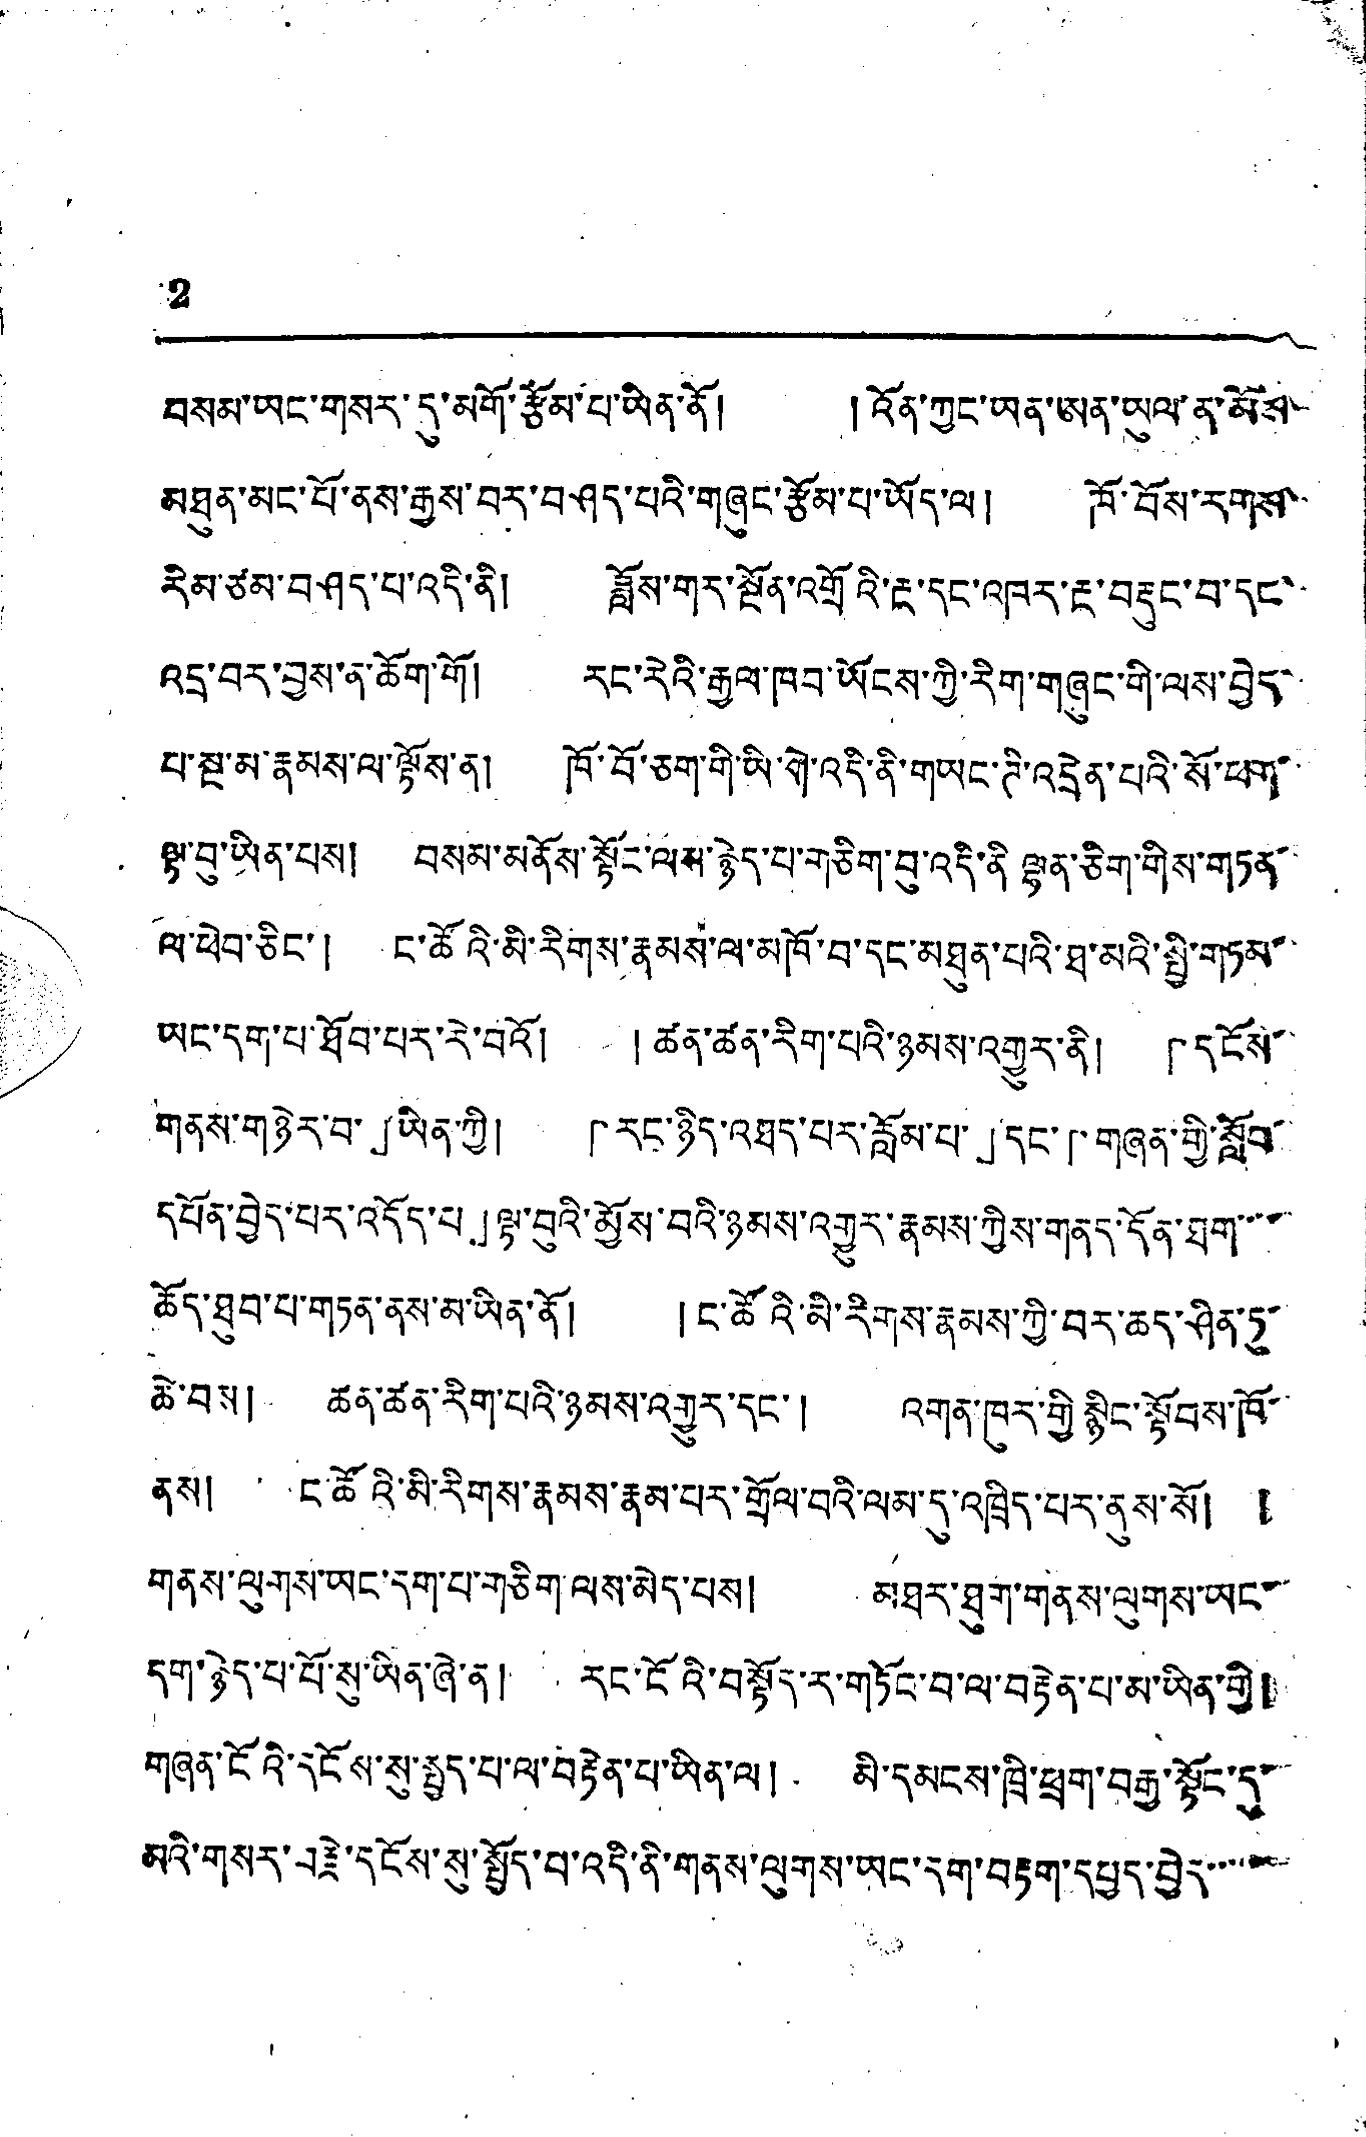2
བསམ་ཡང་གསར་དུ་མགོ་རྩོམ་པ་ཡིན་ནོ། །འོན་ཀྱང་ཡན་ཨན་ཡུལ་ན་མོས
མཐུན་མང་པོ་ནས་རྒྱས་བར་བཤད་པའི་གཞུང་རྩོམ་པ་ཡོད་ལ། ཁོ་བོས་རགས་
རིམ་ཙམ་བཤད་པ་འདི་ནི། ཟློས་གར་སྔོན་འགྲོའི་རྔ་དང་འཁར་རྔ་བརྡུང་བ་དང་།
འདྲ་བར་བྱས་ན་ཆོག་གོ། རང་རེའི་རྒྱལ་ཁབ་ཡོངས་ཀྱི་རིག་གཞུང་གི་ལས་བྱེད་
པ་སྔ་མ་རྣམས་ལ་ལྟོས་ན། ཁོ་བོ་ཅག་གི་ཡི་གེ་འདི་ནི་གཡང་ཊི་འདྲེན་པའི་སོ་ཕག་
ལྟ་བུ་ཡིན་པས། བསམ་མནོས་སྟོང་ལས་རྙེད་པ་གཅིག་བུ་འདི་ནི་ལྷན་ཅིག་གིས་གཏན་
ལ་ཕེབ་ཅིང་། ང་ཚོའི་མི་རིགས་རྣམས་ལ་མཁོ་བ་དང་མཐུན་པའི་ཐ་མའི་སྤྱི་གཏམ་
ཡང་དག་པ་ཐོབ་པར་རེ་བའོ། །ཚན་ཚན་རིག་པའི་ཉམས་འགྱུར་ནི། 「དངོས་
གནས་གཉེར་བ་」ཡིན་ཀྱི། 「རང་ཉིད་འཐད་པར་རློམ་པ་」དང་「གཞན་གྱི་སློབ་
དཔོན་བྱེད་པར་འདོད་པ」ལྟ་བུའི་མྱོས་བའི་ཉམས་འགྱུར་རྣམས་ཀྱིས་གནད་དོན་ཐག་་་་
ཆོད་ཐུབ་པ་གཏན་ནས་མ་ཡིན་ནོ། །ང་ཚོའི་མི་རིགས་རྣམས་ཀྱི་བར་ཆད་ཤིན་ཏུ་
ཆེ་བས། ཚན་ཚན་རིག་པའི་ཉམས་འགྱུར་དང་། འགན་ཁུར་གྱི་སྙིང་སྟོབས་ཁོ་
ནས། ང་ཚོའི་མི་རིགས་རྣམས་རྣམ་པར་གྲོལ་བའི་ལམ་དུ་འཁྲིད་པར་ནས་སོ། །
གནས་ལུགས་ཡང་དག་པ་གཅིག་ལས་མེད་པས། མཐར་ཐག་གནས་ལུགས་ཡང་
དག་ཉེད་པ་པོ་སུ་ཡིན་ཞེ་ན། རང་ངོའི་བསྟོད་ར་གཏོང་བ་ལ་བརྟེན་པ་མ་ཡིན་གྱི།
གཞན་ངོའི་དངོས་སུ་སྤྱད་པ་ལ་བརྟེན་པ་ཡིན་ལ། མི་དམངས་ཁྲི་ཕྲུག་བརྒྱ་སྟོང་དུ་
མའི་གསར་བརྗེ་དངོས་སུ་སྤྱོད་པ་འདི་ནི་གནས་ལུགས་ཡང་དག་བརྟག་དཔྱད་བྱེད་་་་་་
